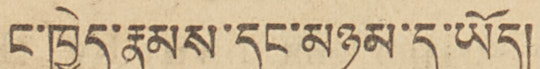ང་ཁྱེད་རྣམས་དང་མཉམ་དུ་ཡོད།
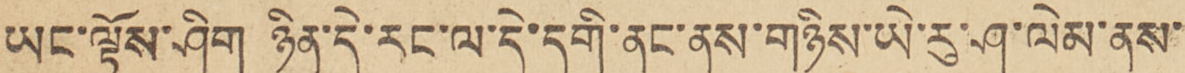ཡང་ལྟོས་ཤིག ཉིན་དེ་རང་ལ་དེ་དག་ནང་ནས་གཉིས་ཡེ་རུ་ཤ་ལེམ་ནས
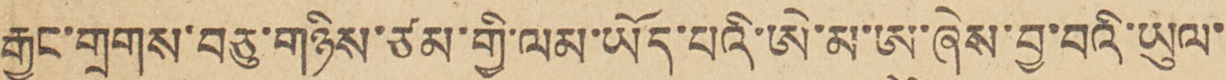རྒྱང་གྲགས་བཅུ་གཉིས་ཙམ་གྱི་ལམ་ཡོད་པའི་ཨེ་མ་ཨུ་ཞེས་བྱ་བའི་ཡུལ་
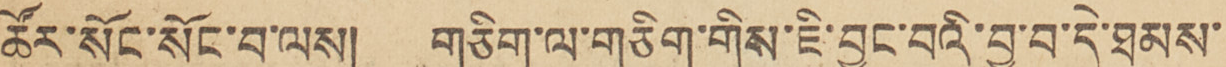ཚོར་སོང་སོང་བ་ལས། གཅིག་ལ་གཅིག་གིས་ཇི་བྱུང་བའི་བྱ་བ་དེ་ཐམས་
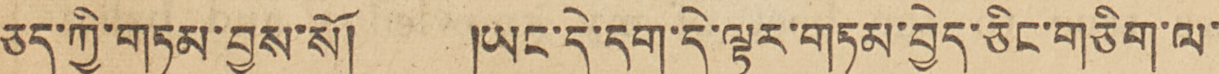ཅད་ཀྱི་གཏམ་བྱས་སོ། །ཡང་དེ་དག་དེ་ལྟར་གཏམ་བྱེད་ཅིང་གཅིག་ལ་
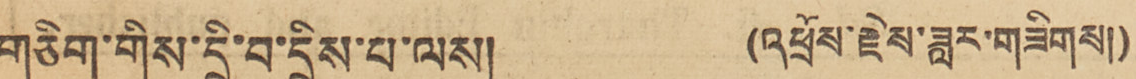གཅིག་གིས་དྲི་བ་དྲིས་པ་ལས། (འཕྲོས་རྗེས་ཟླར་གཟིགས།)
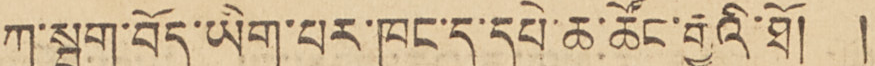ཀ་སྦུག་བོད་ཡིག་པར་ཁང་དུ་དཔེ་ཆ་ཚོང་རྒྱུའི་ཐོ། །
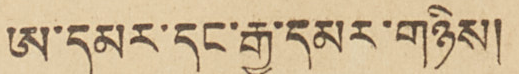ཨུ་དམར་དང་རྒྱ་དམར་གཉིས།
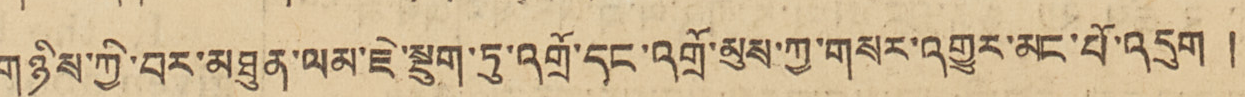གཉིས་ཀྱི་བར་མཐུན་ལམ་ཇེ་སྔུག་ཏུ་འགྲོ་དང་འགྲོ་མུས་ཀྱ་གསར་འགྱུར་མང་པོ་འདུག །
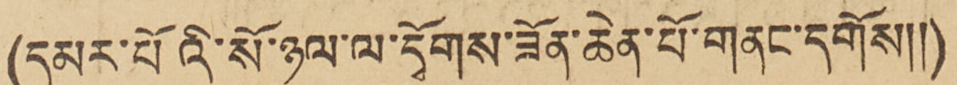(དམར་པོའི་སོ་ཉུལ་ལ་དྭོགས་ཟོན་ཆེན་པོ་གནང་དགོས།།)
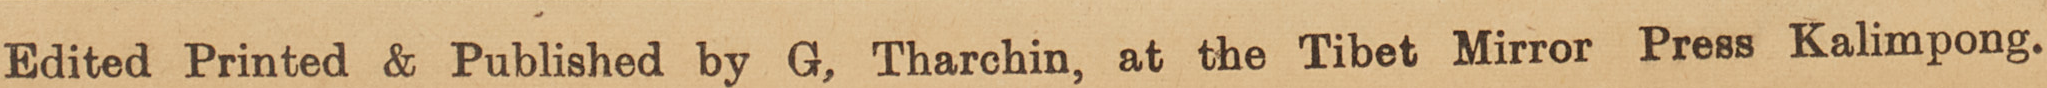Edited Printed & Published by G, Tharchin, at the Tibet Mirror Press Kalimpong.
